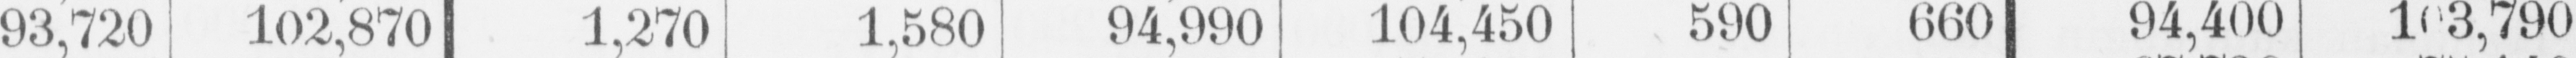— 93,720 102,870 1,270 1,580 94,990 104,450 590 660 94,400 103,790
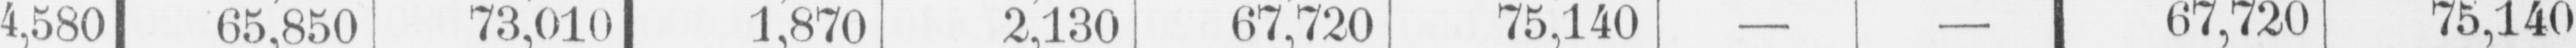4,580 65,850 73,010 1,870 2,130 67,720 75,140 — — 67,720 75,140
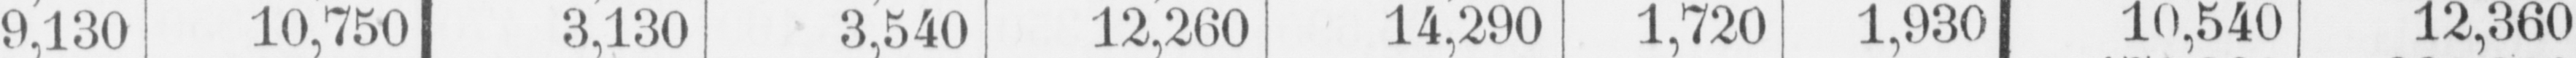— 9,130 10,750 3,130 3,540 12,260 14,290 1,720 1,930 10,540 12,360
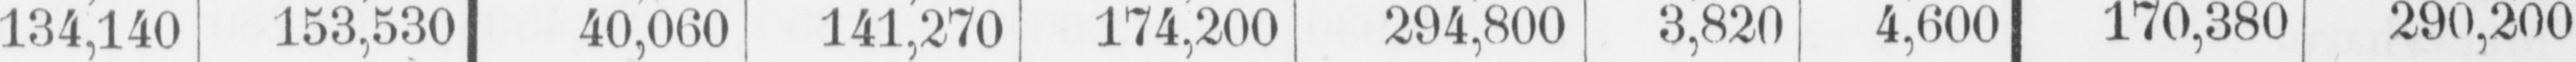— 134,140 153,530 40,060 141,270 174,200 294,800 3,820 4,600 170,380 290,200
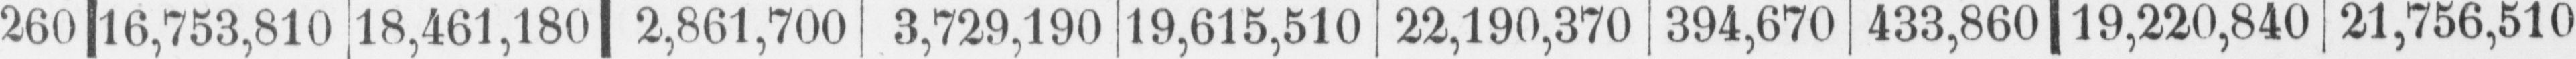18,260 16,753,810 18,461, 180 2,861,700 3,729,190 19,615,510 22,190,370 394,670 433,860 19,220,840 21,756,510
